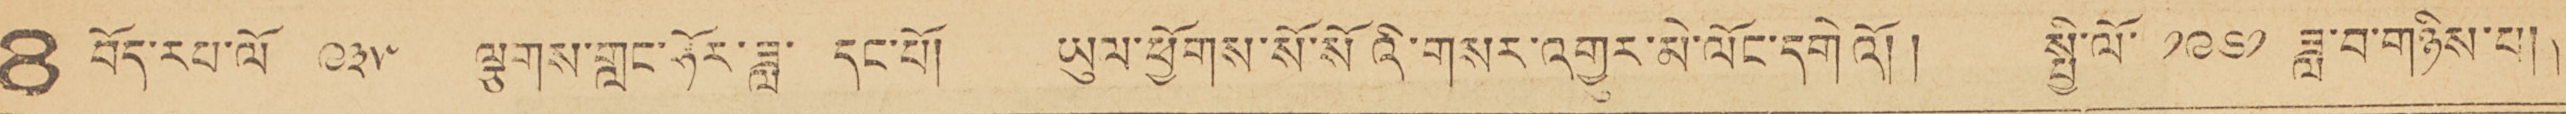8 བོད་རབ་ལོ་ ༩༣༥ ལྕགས་གླང་ཧོར་ཟླ་ དང་པོ། ཡུལ་ཕྱོགས་སོ་སོའི་གསང་འགྱུར་མེ་ལོང་དགེའོ།། སྤྱི་ལོ་ ༡༩༦༡ ཟླ་བ་གཉིས་པ།།
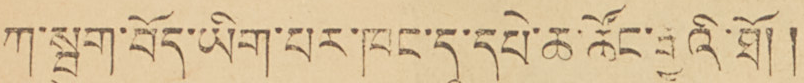ཀ་སྦུག་བོད་ཡིག་པར་ཁང་དུ་དཔེ་ཆ་ཚོང་རྒྱུའི་ཐོ།།
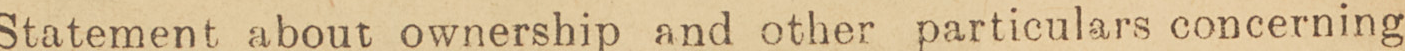Statement about ownership and other particulars concerning
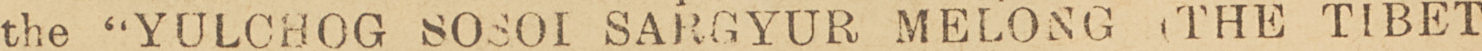the ''YULCHOG SOSOI SARGYUR MELONG (THE TIBET
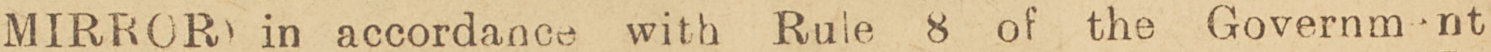MIRROR in accordance with Rule 8 of the Government
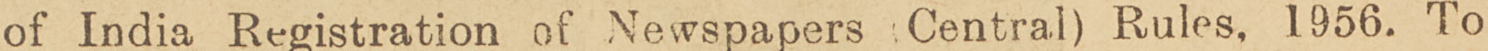of India Registration of Newspapers Central) Rules, 1956. To
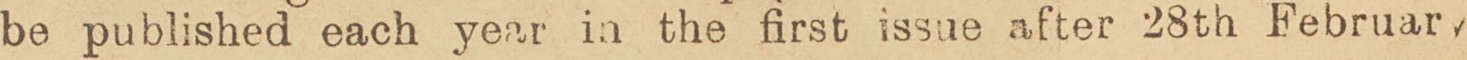be published each year on the first issue after 28th February
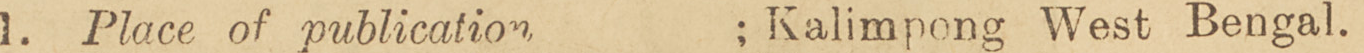1. Place of publication : Kalimpong, West Bengal.
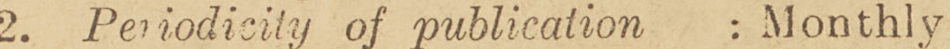2. Periodicity of publication :Monthly.
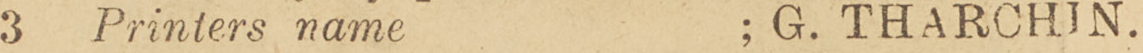3. Printer's name : G. THARCHIN.
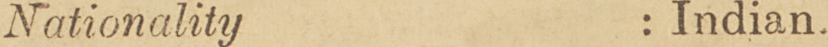Nationalioy : Indian.
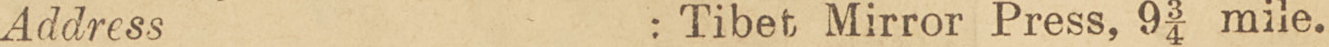Address : Tibet Mirror Press, 9¾ mile
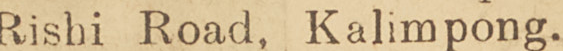Rishi Road, Kalimpong
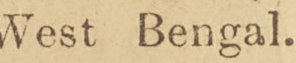West Bengal.
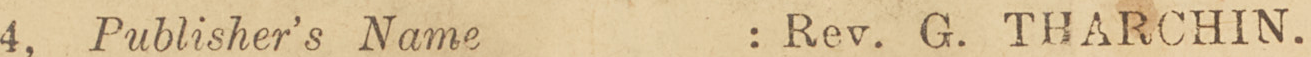4. Publisher's name : Rev. G. THARCHIN.
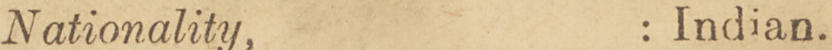Nationality, : Indian.
